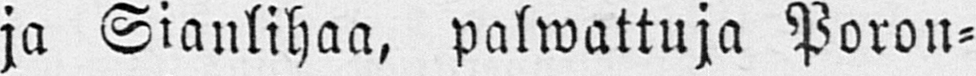ja Sianlihaa, palwattuja Poron-
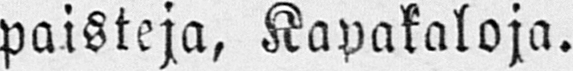paisteja, Kapakaloja.
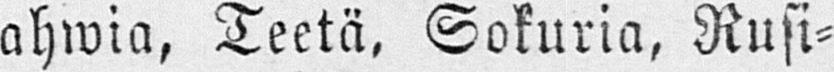Kahwia, Teetä. Sokuria, Rusi-
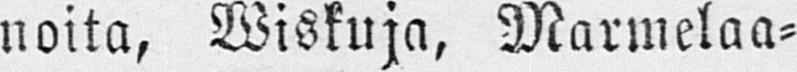noita, Wiskuja, Marmelaa-
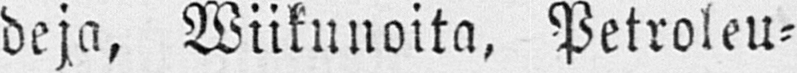deja, Wiikunoita, Petroleu-
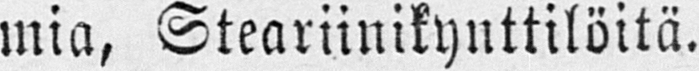mia, Steariinikynttilöitä.
